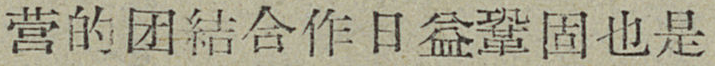营的团結合作日益鞏固也是
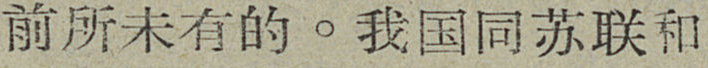前所未有的。我国同苏联和
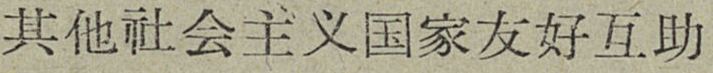其他社会主义国家友好互助
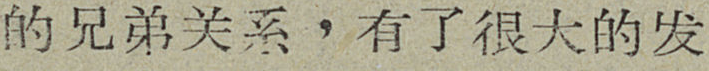的兄弟关系，有了很大的发
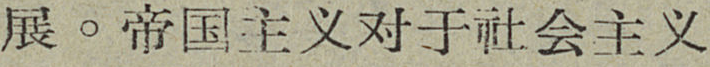展。帝国主义对于社会主义
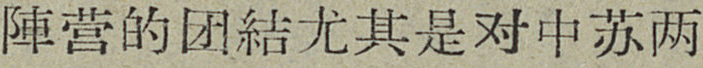陣营的团結尤其是对中苏两
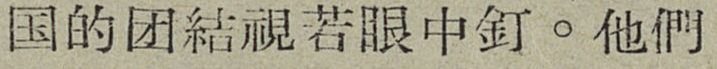国的团結視若眼中釘。他們
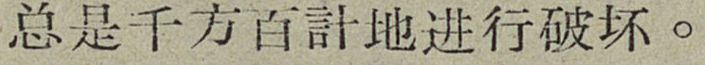总是千方百計地进行破坏。
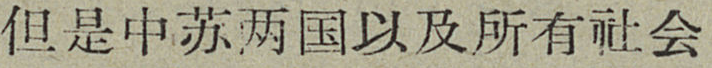但是中苏两国以及所有社会
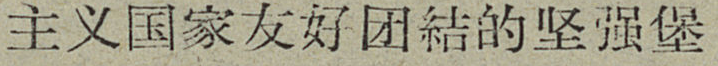主义国家友好团結的坚强堡
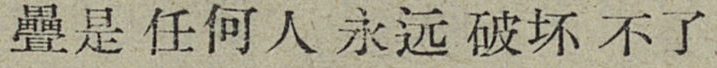疊是任何人永远破坏不了
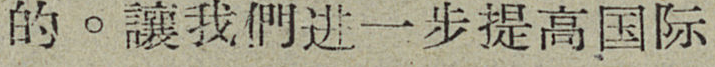的。讓我們进一步提高国际
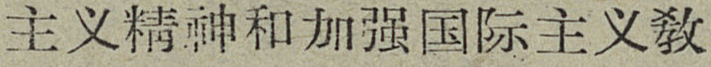主义精神和加强国际主义敎
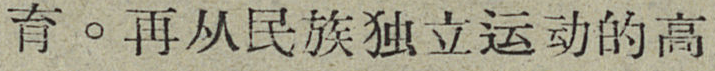育。再从民族独立运动的高
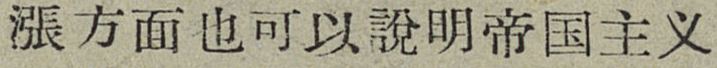漲方面也可以說明帝国主义
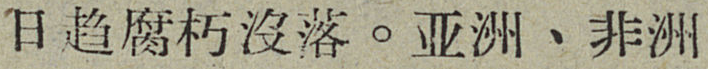日趋腐朽沒落。亚洲、非洲
